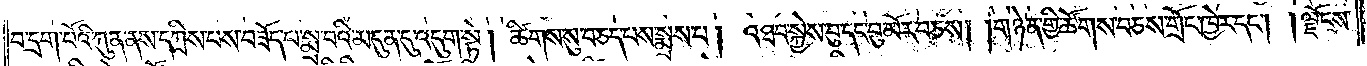བ་དྲག་པོའི་ཀུན་ནས་དཀྲིས་པས་བཟོད་པ་སྨྲ་བའི་མདུན་དུ་འདུག་སྟེ། ཚིགས་སུ་བཅད་པས་སྨྲས་པ། འཐབ་སྐྱེས་བུ་དང་བུ་མོར་བཅས། །གཉེན་གྱི་ཚོགས་བཅས་གྲོང་ཁྱེར་དང༌། །ལྗོངས་
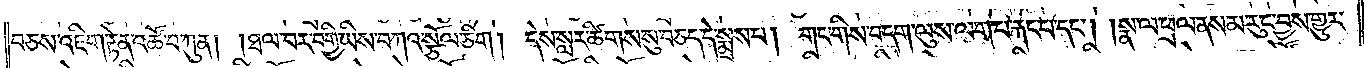བཅས་འཇིག་རྟེན་འཚོ་བ་ཀུན། །ཐལ་བར་བགྱི་ཡིས་བཀའ་སྩོལ་ཅིག། དེས་སླར་ཚིགས་སུ་བཅད་དེ་སྨྲས་པ། གང་གིས་བདག་ལུས་ལག་པ་རྐང་པ་དང༌། །སྣ་ལ་ཕྲལ་ནས་མ་རུང་བྱས་གྱུར་
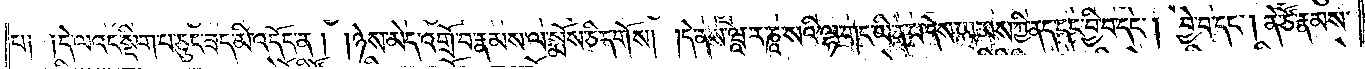པ། །དེ་ལའང་སྡིག་པ་ཅུང་ཟད་མི་འདོད་ན། །ཉེས་མེད་འགྲོ་བ་རྣམས་ལ་སྨོས་ཅི་དགོས། །དེ་ནས་ཝཱ་ར་ཎཱ་སའི་ལྷ་གང་ཡིན་པ་དེས་ཡམས་ཀྱི་ནད་དང་བྱི་བ་དང༌། བྱེ་བ་དང༌། ནེ་ཙོ་རྣམས་
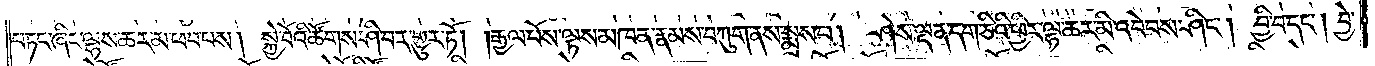བཏང་ཞིང་ལྷས་ཆར་མ་ཕབ་པས། སྐྱེ་བོའི་ཚོགས་ཤི་བར་གྱུར་ཏོ། །རྒྱལ་པོས་ལྟས་མཁན་རྣམས་བཀུག་ནས་སྨྲས་པ། ཤེས་ལྡན་དག་ཅིའི་ཕྱིར་ལྷ་ཆར་མི་འབེབས་ཤིང༌། བྱི་བ་དང༌། བྱེ་
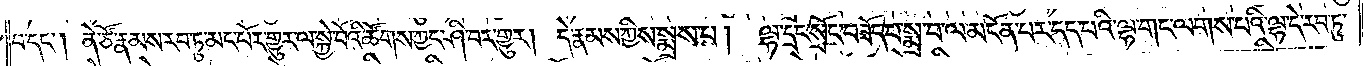བ་དང༌། ནེ་ཙོ་རྣམས་རབ་ཏུ་མང་པོར་གྱུར་ལ་སྐྱེ་བོའི་ཚོགས་ཀྱང་ཤི་བར་གྱུར། དེ་རྣམས་ཀྱིས་སྨྲས་པ། ལྷ་དྲང་སྲོང་བཟོད་པ་སྨྲ་བ་ལ་མངོན་པར་དད་པའི་ལྷ་གང་ལགས་པའི་ལྷ་དེ་རབ་ཏུ་
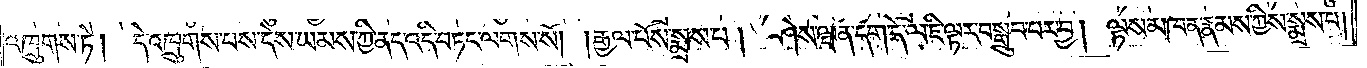འཁྲུགས་ཏེ། དེ་འཁྲུགས་པས་དེས་ཡམས་ཀྱི་ནད་འདི་བཏང་ལགས་སོ། །རྒྱལ་པོས་སྨྲས་པ། ཤེས་ལྡན་དག་དེ་ལ་ཇི་ལྟར་བསྒྲུབ་པར་བྱ། ལྟས་མཁན་རྣམས་ཀྱིས་སྨྲས་པ།
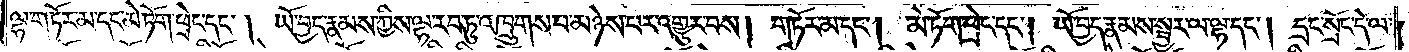ལྷ་གཏོར་མ་དང་མེ་ཏོག་ཕྲེང་དང༌། ཡོ་བྱད་རྣམས་ཀྱིས་ལྷ་རབ་ཏུ་འཁྲུགས་པ་མཉེས་པར་འགྱུར་བས། གཏོར་མ་དང༌། མེ་ཏོག་ཕྲེང་དང༌། ཡོ་བྱད་རྣམས་སྦྱར་ལ་ལྷ་དང༌། དྲང་སྲོང་དེ་ལ་
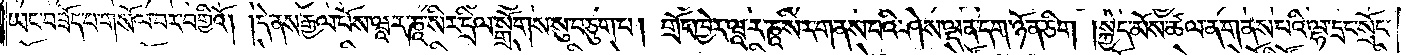ཡང་བཟོད་པ་གསོལ་བར་བགྱིའོ། །དེ་ནས་རྒྱལ་པོས་ཝཱ་ར་ཎཱ་སིར་དྲིལ་སྒྲོགས་སུ་བཅུག་པ། གྲོང་ཁྱེར་ཝཱ་ར་ཎཱ་སིར་གནས་པའི་ཤེས་ལྡན་དག་ཉོན་ཅིག །སྐྱེད་མོས་ཚལ་ན་གནས་པའི་ལྷ་དྲང་སྲོང་
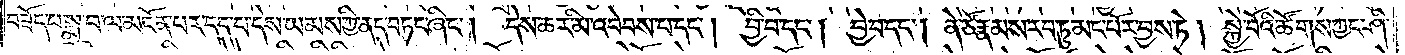བཟོད་པ་སྨྲ་བ་ལ་མངོན་པར་དད་པ་དེས་ཡམས་ཀྱི་ནད་བཏང་ཞིང༌། དེས་ཆར་མི་འབེབས་པ་དང༌། བྱི་བ་དང༌། བྱེ་བ་དང༌། ནེ་ཙོ་རྣམས་རབ་ཏུ་མང་པོར་བྱས་ཏེ། སྐྱེ་བོའི་ཚོགས་ཀྱང་ཤི་
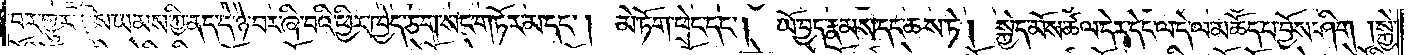བར་གྱུར་གྱིས་ཡམས་ཀྱི་ནད་དེ་ཉེ་བར་ཞི་བའི་ཕྱིར་ཁྱེད་ཅག་སང་གཏོར་མ་དང༌། མེ་ཏོག་ཕྲེང་དང༌། ཡོ་བྱད་རྣམས་དང་ཆས་ཏེ། སྐྱེད་མོས་ཚལ་དེར་དེང་ལ་དེ་ལ་མཆོད་པ་བྱོས་ཤིག །སྐྱེ་
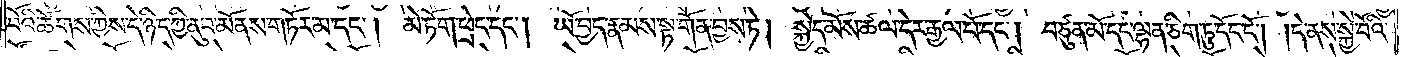བོའི་ཚོགས་ཀྱིས་དེ་ཉིད་ཀྱི་ནུབ་མོ་ནས་གཏོར་མ་དང༌། མེ་ཏོག་ཕྲེང་དང༌། ཡོ་བྱད་རྣམས་སྟ་གོན་བྱས་ཏེ། སྐྱེད་མོས་ཚལ་དེར་རྒྱལ་པོ་དང༌། བཙུན་མོ་དང་ལྷན་ཅིག་ཏུ་དོང་ངོ༌། །དེ་ནས་སྐྱེ་བོའི་
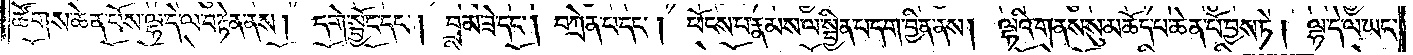ཚོགས་ཆེན་པོས་ལྷ་དེ་ལ་བརྟེན་ནས། དགེ་སྦྱོང་དང༌། བྲམ་ཟེ་དང༌། བཀྲེན་པ་དང༌། ཕོངས་པ་རྣམས་ལ་སྦྱིན་པ་དག་བྱིན་ནས། ལྷའི་གནས་སུ་མཆོད་པ་ཆེན་པོ་བྱས་ཏེ། ལྷ་དེ་ལ་ཡང་
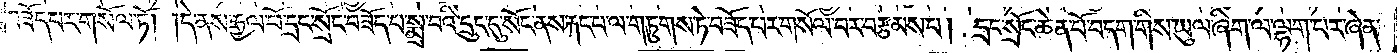བཟོད་པར་གསོལ་ཏོ། །དེ་ནས་རྒྱལ་པོ་དྲང་སྲོང་བཟོད་པ་སྨྲ་བའི་དྲུང་དུ་སོང་ནས་རྐང་པ་ལ་གཏུགས་ཏེ་བཟོད་པར་གསོལ་བར་བརྩམས་པ། དྲང་སྲོང་ཆེན་པོ་བདག་གིས་ཡུལ་ཞིག་ལ་ལྷག་པར་ཞེན་
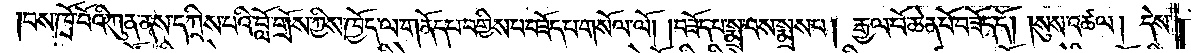བས་ཁྲོ་བོའི་ཀུན་ནས་དཀྲིས་པའི་བློ་གྲོས་ཀྱིས་ཁྱོད་ལ་གནོད་པ་བགྱིས་པ་བཟོད་པ་གསོལ་ལོ། །བཟོད་པ་སྨྲ་བས་སྨྲས་པ། རྒྱལ་པོ་ཆེན་པོ་བཟོད་དོ། །སུས་འཚལ། དེས་
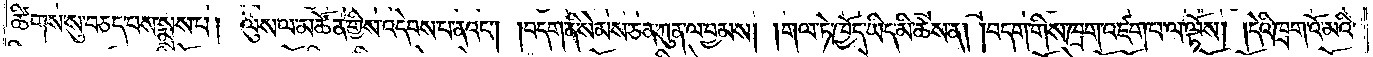ཚིགས་སུ་བཅད་པས་སྨྲས་པ། ལུས་ལ་མཚོན་གྱིས་འདེབས་པ་ནའང༌། །བདག་ནི་སེམས་ཅན་ཀུན་ལ་བྱམས། །གལ་ཏེ་ཁྱོད་ཡིད་མི་ཆེས་ན། །བདག་གིས་ཁྲག་འཛག་པ་ལ་ལྟོས། །དེའི་ཁྲག་འོ་མའི་
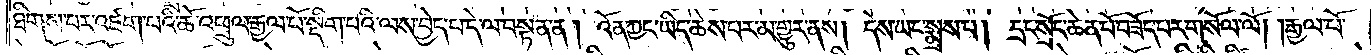ཐིགས་པར་འཛག་པའི་ཆོ་འཕྲུལ་རྒྱལ་པོ་སྡིག་པའི་ལས་བྱེད་པ་དེ་ལ་བསྟན་ན། འོན་ཀྱང་ཡིད་ཆེས་པར་མ་གྱུར་ནས། དེས་ཡང་སྨྲས་པ། དྲང་སྲོང་ཆེན་པོ་བཟོད་པར་གསོལ་ལོ། །རྒྱལ་པོ་
